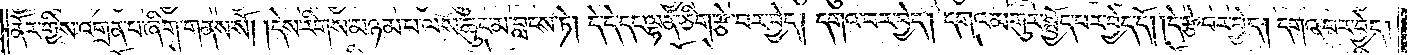ནོར་གྱིས་འགྲན་པ་ཞིག་གནས་སོ། །དེས་རིགས་མཉམ་པ་ལས་ཆུང་མ་བླངས་ཏེ། དེ་དེ་དང་ལྷན་ཅིག་རྩེ་བར་བྱེད། དགའ་བར་བྱེད། དགའ་མགུར་སྤྱོད་པར་བྱེད་དོ། །དེ་རྩེ་བར་བྱེད། དགའ་བར་བྱེད།
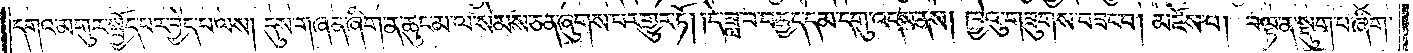དགའ་མགུར་སྤྱོད་པར་བྱེད་པ་ལས། དུས་གཞན་ཞིག་ན་ཆུང་མ་ལ་སེམས་ཅན་ཞུགས་པར་གྱུར་ཏོ། །དེ་ཟླ་བ་བརྒྱད་དམ་དགུ་འདས་ནས། ཁྱེའུ་གཟུགས་བཟང་བ། མཛེས་པ། བལྟ་ན་སྡུག་པ་ཞིག་
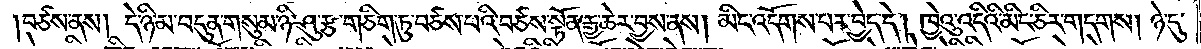བཙས་ནས། དེ་ཉི་མ་བདུན་གསུམ་ཉི་ཤུ་རྩ་གཅིག་ཏུ་བཙས་པའི་བཙས་སྟོན་རྒྱ་ཆེར་བྱས་ནས། མིང་འདོགས་པར་བྱེད་དེ། ཁྱེའུ་འདིའི་མིང་ཅིར་གདགས། ཉེ་དུ་
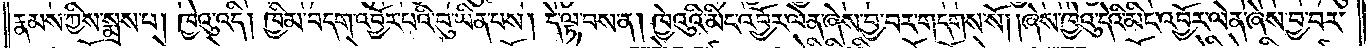རྣམས་ཀྱིས་སྨྲས་པ། ཁྱེའུ་འདི། ཁྱིམ་བདག་འབྱོར་པའི་བུ་ཡིན་པས། དེ་ལྟ་བས་ན། ཁྱེའུའི་མིང་འབྱོར་ལེན་ཞེས་བྱ་བར་གདགས་སོ། །ཞེས་ཁྱེའུ་དེའི་མིང་འབྱོར་ལེན་ཞེས་བྱ་བར་
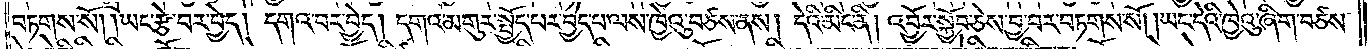བཏགས་སོ། །ཡང་རྩེ་བར་བྱེད། དགའ་བར་བྱེད། དགའ་མགུར་སྤྱོད་པར་བྱེད་པ་ལས་ཁྱེའུ་བཙས་ནས། དེའི་མིང་ནི། འབྱོར་སྐྱོབ་ཅེས་བྱ་བར་བཏགས་སོ། །ཡང་དེའི་ཁྱེའུ་ཞིག་བཙས་
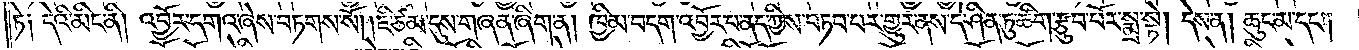ཏེ༑ དེའི་མིང་ནི། འབྱོར་དགའ་ཞེས་བཏགས་སོ། །ཇི་ཙམ་དུས་གཞན་ཞིག་ན། ཁྱིམ་བདག་འབྱོར་བ་ནད་ཀྱིས་བཏབ་པར་གྱུར་ནས་དེ་ཤིན་ཏུ་ཚིག་རྩུབ་པོར་སྨྲ་སྟེ། དེས་ན། ཆུང་མ་དང༌།
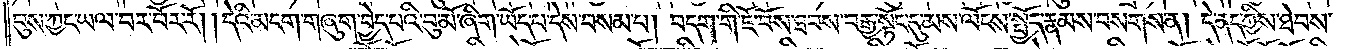བུས་ཀྱང་ཡལ་བར་བོར་རོ། །དེའི་མངག་གཞུག་བྱེད་པའི་བུ་མོ་ཞིག་ཡོད་པ་དེས་བསམ་པ། བདག་གི་ཇོ་བོས་ཐབས་བརྒྱ་སྟོང་དུ་མས་ལོངས་སྤྱོད་རྣམས་བསགས་ན། དེ་ནད་ཀྱིས་ཐེབས་
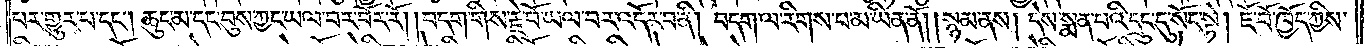པར་གྱུར་པ་དང༌། ཆུང་མ་དང་བུས་ཀྱང་ཡལ་བར་བོར་རོ། །བདག་གིས་རྗེ་བོ་ཡལ་བར་འདོར་བ་ནི། བདག་ལ་རིགས་པ་མ་ཡིན་ནོ། །སྙམ་ནས། དེས་སྨན་པའི་དྲུང་དུ་སོང་སྟེ། ཇོ་བོ་ཁྱོད་ཀྱིས་
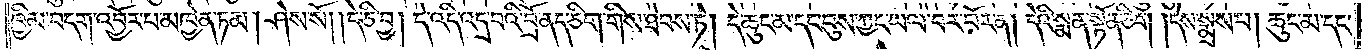ཁྱིམ་བདག་འབྱོར་པ་མཁྱེན་ཏམ། ཤེས་སོ། །དེ་ཅི་བྱ། དེ་འདི་འདྲ་བའི་བྲོ་ནད་ཅིག་གིས་ཐེབས་ཏེ། དེ་ཆུང་མ་དང་བུས་ཀྱང་ཡལ་བར་བོར་ན། དེའི་སྨན་སྟོན་ཅིག །དེས་སྨྲས་པ། ཆུང་མ་དང་
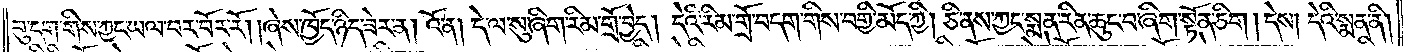བུ་དག་གིས་ཀྱང་ཡལ་བར་བོར་རོ། །ཞེས་ཁྱོད་ཉིད་ཟེར་ན། འོ་ན། དེ་ལ་སུ་ཞིག་རིམ་གྲོ་བྱེད། དེའི་རིམ་གྲོ་བདག་གིས་བགྱི་མོད་ཀྱི། ཅི་ནས་ཀྱང་སྨན་རིན་ཆུང་བ་ཞིག་སྟོན་ཅིག །དེས། དེའི་སྨན་ནི།
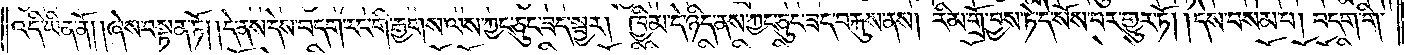འདི་ཡིན་ནོ། །ཞེས་བསྟན་ཏོ། །དེ་ནས་དེས་བདག་རང་གི་རྒྱགས་ལས་ཀྱང་ཅུང་ཟད་སྦྱར། ཁྱིམ་དེ་ཉིད་ནས་ཀྱང་ཅུང་ཟད་བརྐུས་ནས། རིམ་གྲོ་བྱས་ཏེ་དེ་སོས་པར་གྱུར་ཏོ། །དེས་བསམ་པ། བདག་གི་
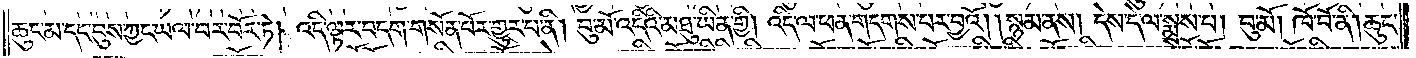ཆུང་མ་དང་བུས་ཀྱང་ཡལ་བར་བོར་ཏེ། འདི་ལྟར་བདག་གསོན་པོར་གྱུར་པ་ནི། བུ་མོ་འདིའི་མཐུ་ཡིན་གྱི། འདི་ལ་ཕན་གདགས་པར་བྱའོ། །སྙམ་ནས། དེས་དེ་ལ་སྨྲས་པ། བུ་མོ། ཁོ་བོ་ནི། ཆུང་
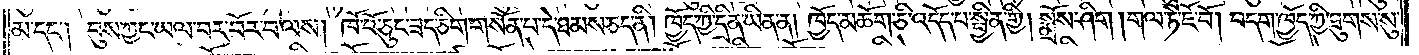མ་དང༌། བུས་ཀྱང་ཡལ་བར་བོར་བ་ལས། ཁོ་བོ་ཅུང་ཟད་ཅིག་གསོན་པ་དེ་ཐམས་ཅད་ནི། ཁྱོད་ཀྱི་དྲིན་ཡིན་ན། ཁྱོད་མཆོག་ཅི་འདོད་པ་སྦྱིན་གྱི། སྨྲོས་ཤིག །གལ་ཏེ་ཇོ་བོ། བདག་ཁྱོད་ཀྱི་ཐུགས་སུ་
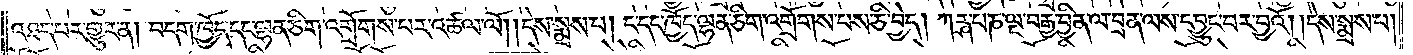འཐད་པར་གྱུར་ན། བདག་ཁྱོད་དང་ལྷན་ཅིག་འགྲོགས་པར་འཚལ་ལོ། །དེས་སྨྲས་པ། ང་དང་ཁྱོད་ལྷན་ཅིག་འགྲོགས་པས་ཅི་བྱེད། ཀརྴ་པཎ་ལྔ་བརྒྱ་བྱིན་ལ་བྲན་ལས་དབྱུང་བར་བྱའོ། །དེས་སྨྲས་པ།
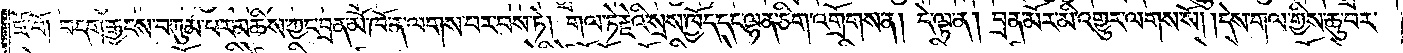ཇོ་བོ། བདག་རྒྱངས་བཀུམ་པར་མཆིས་ཀྱང་བྲན་མོ་ཁོ་ན་ལགས་པར་བས་ཏེ། གལ་ཏེ་རྗེའི་སྲས་ཁྱོད་དང་ལྷན་ཅིག་འགྲོགས་ན། དེ་ལྟ་ན། བྲན་མོར་མི་འགྱུར་ལགས་སོ། །དེས་གལ་གྱིས་ཆུ་བར་
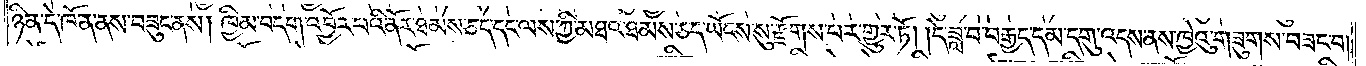ཉིན་དེ་ཁོ་ན་ནས་བཟུང་ནས། ཁྱིམ་བདག་འབྱོར་བའི་ནོར་ཐམས་ཅད་དང་ལས་ཀྱི་མཐའ་ཐམས་ཅད་ཡོངས་སུ་རྫོགས་པར་གྱུར་ཏོ། །དེ་ཟླ་བ་བརྒྱད་དམ་དགུ་འདས་ནས་ཁྱེའུ་གཟུགས་བཟང་བ་
